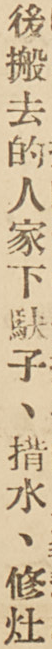後搬去的人家下䭾子、揹水、修灶
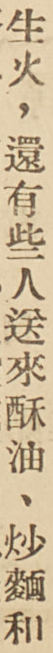生火，還有些人送來酥油、炒麵和
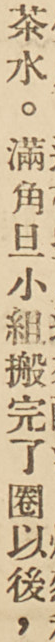茶水。滿角旦小組搬完了圈以後，
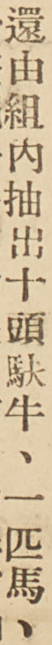還由組內抽出十頭䭾牛、一匹馬、
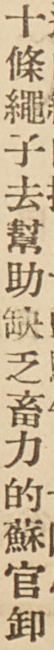十條繩子去幫助缺乏畜力的蘇官卸
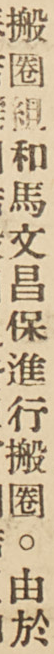搬圈組和馬文昌保進行搬圈。由於
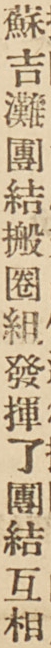蘇吉灘團結搬圈組發揮了團結互相
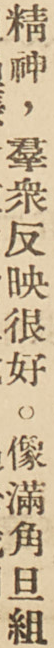精神，羣衆反映很好。像滿角旦組
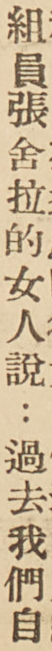組員張舍拉的女人說：過去我們自
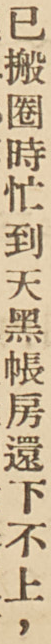己搬圈時忙到天黑帳房還下不上，
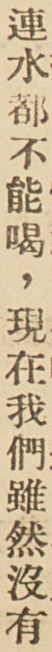連水都不能喝，現在我們雖然沒有
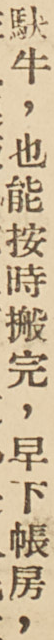䭾牛，也能按時搬完，早下帳房，
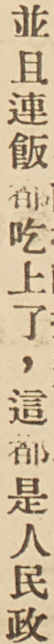並且連飯都吃上了，這都是人民政
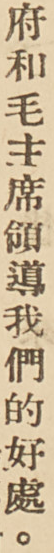府和毛主席領導我們的好處。
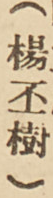（楊丕樹）
